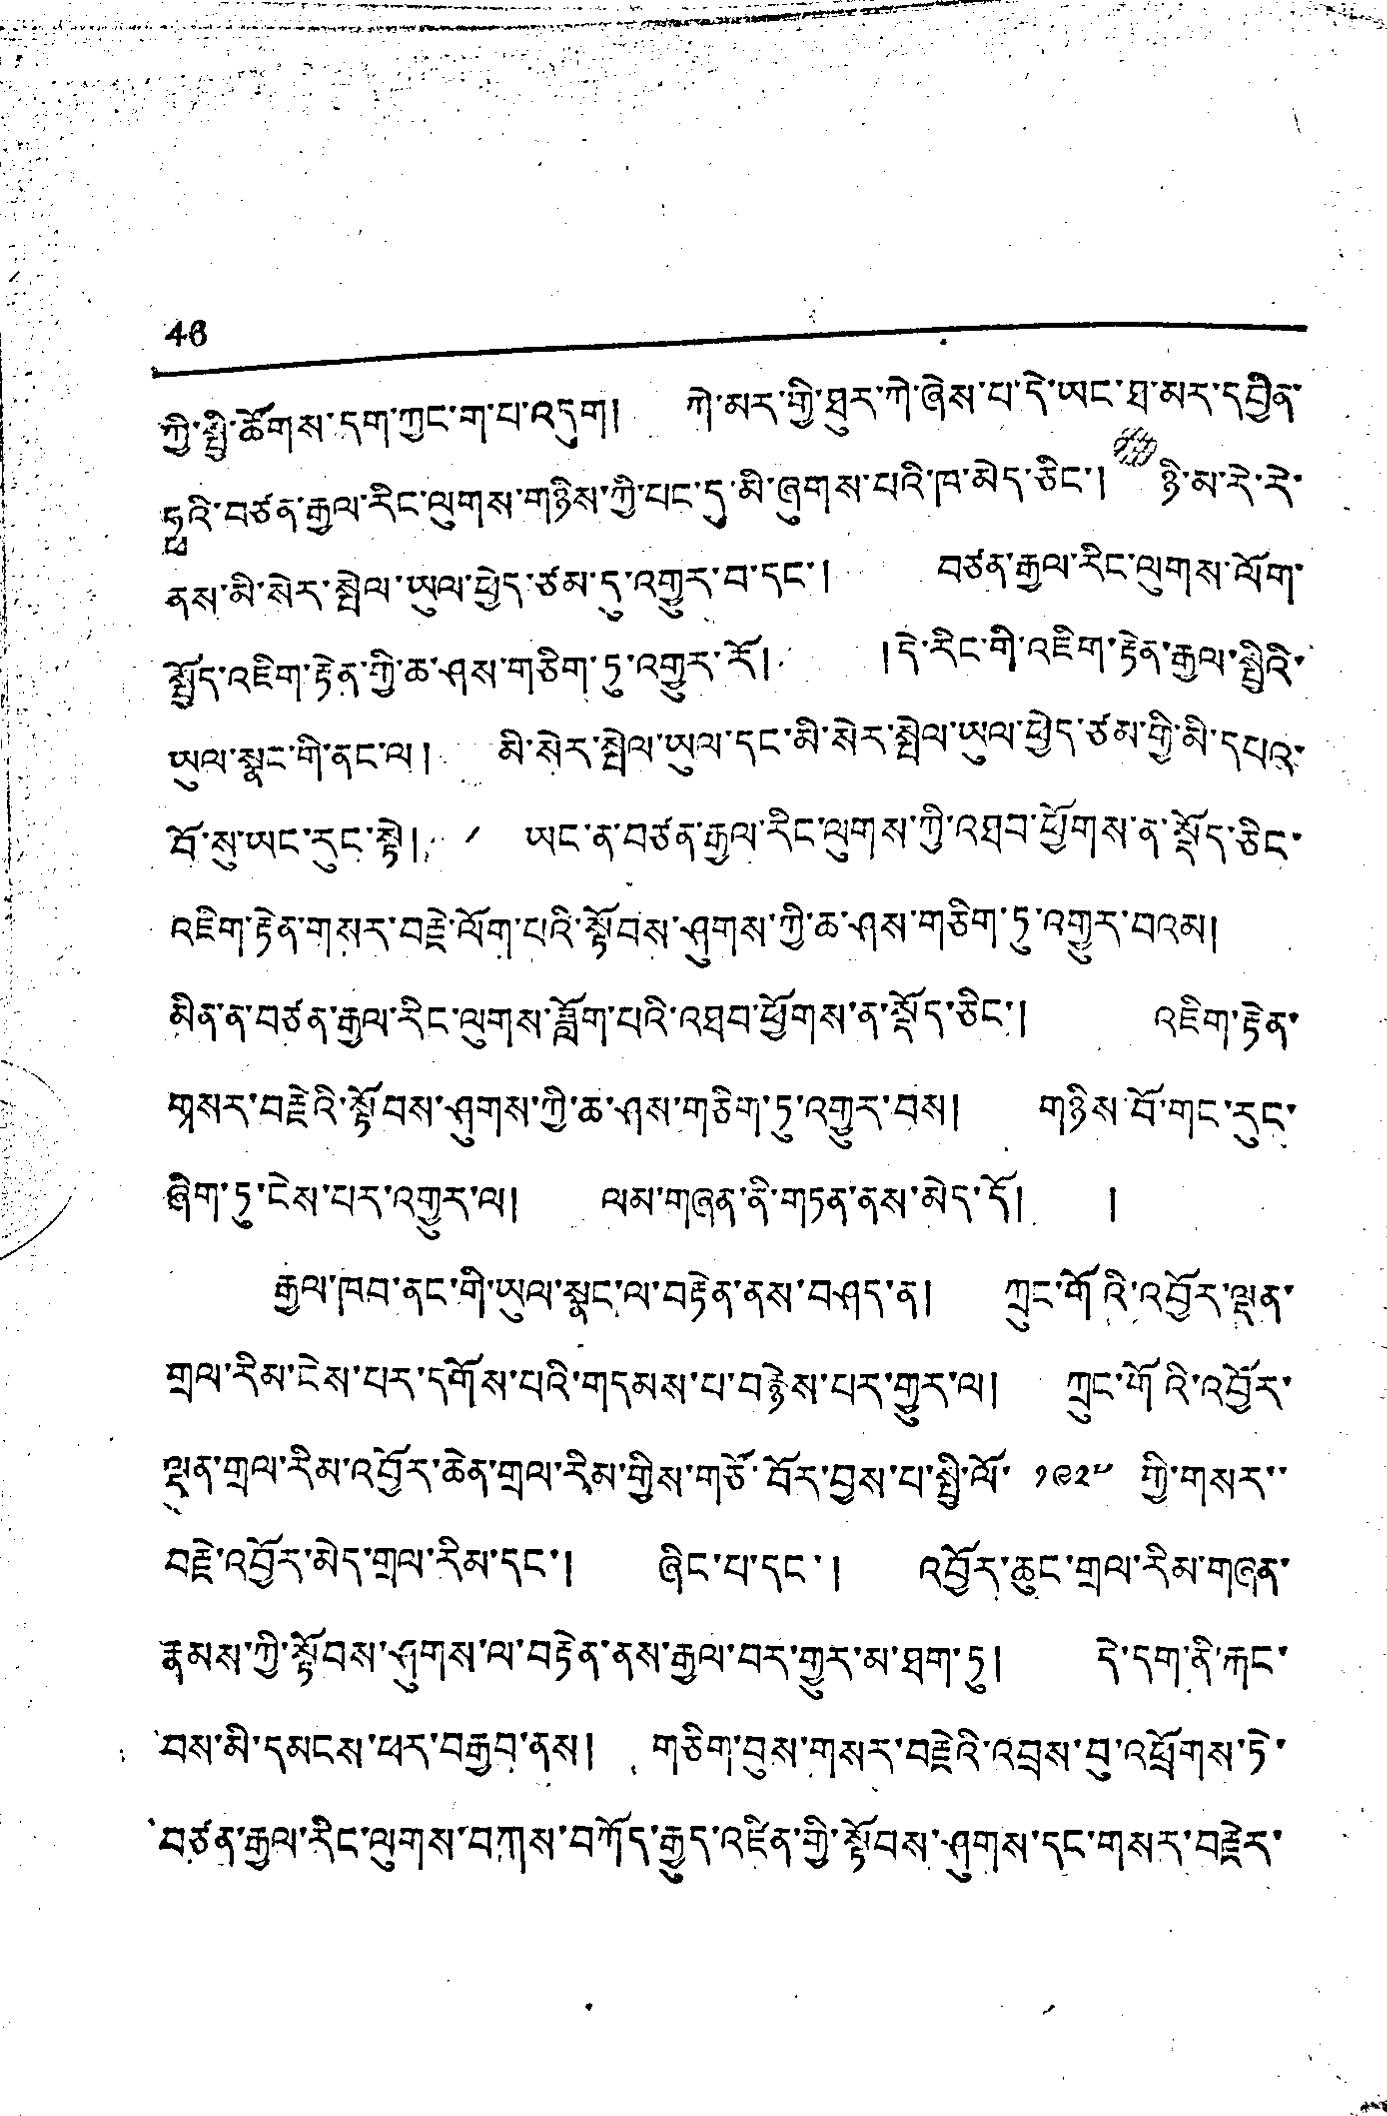46
ཀྱི་སྤྱི་ཚོགས་དག་ཀྱང་ག་པ་འདུག། ཀེ་མར་གྱི་ཐུར་ཀེ་ཞེས་པ་དེ་ཡང་ཐ་མར་དབྱིན་
ཧྥའི་བཙན་རྒྱལ་རིང་ལུགས་གཉིས་ཀྱི་པང་དུ་མི་ཞུགས་པའི་ཁ་མེད་ཅིང་། ཉི་མ་རེ་རེ་
ནས་མི་སེར་སྤེལ་ཡུལ་ཕྱེད་ཙམ་དུ་འགྱུར་བ་དང་། བཙན་རྒྱལ་རིང་ལུགས་ལོག་
སྤྱོད་འཇིག་རྟེན་གྱི་ཆ་ཤས་གཅིག་ཏུ་འགྱུར་རོ། །དེ་རིང་གི་འཇིག་རྟེན་རྒྱལ་སྤྱིའི་
ཡུལ་སྣང་གི་ནང་ལ། མི་སེར་སྤེལ་ཡུལ་དང་མི་སེར་སྤེལ་ཡུལ་ཕྱེད་ཙམ་གྱི་མི་དཔའ་
བོ་སུ་ཡང་རུང་སྟེ། ཡང་ན་བཙན་རྒྱལ་རིང་ལུགས་ཀྱི་འཐབ་ཕྱོགས་ན་སྡོད་ཅིང་།
འཇིག་རྟེན་གསར་བརྗེ་ལོག་པའི་སྟོབས་ཤུགས་ཀྱི་ཆ་ཤས་གཅིག་ཏུ་འགྱུར་བའམ།
མིན་ན་བཙན་རྒྱལ་རིང་ལུགས་ཟློག་པའི་འཐབ་ཕྱོགས་ན་སྟོད་ཅིང་། འཇིག་རྟེན་
གསར་བརྗེའི་སྟོབས་ཤུགས་ཀྱི་ཆ་ཤས་གཅིག་ཏུ་འགྱུར་བས། གཉིས་བོ་གང་རུང་
ཞིག་ཏུ་ངེས་པར་འགྱུར་ལ། ལམ་གཞན་ནི་གཏན་ནས་མེད་དོ། །
རྒྱལ་ཁབ་ནང་གི་ཡུལ་སྣང་ལ་བརྟེན་ནས་བཤད་ན། ཀྲུང་གོའི་འབྱོར་ལྡན་
གྲལ་རིམ་ངེས་པར་དགོས་པའི་གདམས་པ་བརྙེས་པར་གྱུར་ལ། ཀྲུང་གོའི་འབྱོར་
ལྡན་གྲལ་རིམ་འབྱོར་ཆེན་གྲལ་རིམ་གྱིས་གཙོ་བོར་བྱས་པ་སྤྱི་ལོ་ ༡༩༢༧ གྱི་གསར་་
བརྗེ་འབྱོར་མེད་གྲལ་རིམ་དང་། ཞིང་པ་དང་། འབྱོར་ཆུང་གྲལ་རིམ་གཞན་
རྣམས་ཀྱི་སྟོབས་ཤུགས་ལ་བརྟེན་ནས་རྒྱལ་བར་གྱུར་མ་ཐག་ཏུ། དེ་དག་ནི་རྐང་
བས་མི་དམངས་ཕར་བརྒྱབ་ནས། གཅིག་བུས་གསར་བརྗེའི་འབྲས་བུ་འཕྲོགས་ཏེ་
བཙན་རྒྱལ་རིང་ལུགས་བཀས་བཀོད་རྒྱུད་འཛིན་གྱི་སྟོབས་ཤུགས་དང་གསར་བརྗེར་
